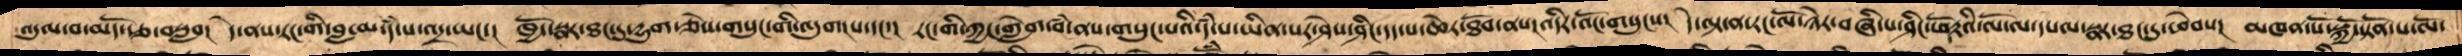འདུལ་བ་མདོ་རྩ་བསླབ།  དེ་ནས་རང་གི་བླ་མ་དཾ་པ་འདྲ་ཡང་།  ཁྱོད་སྣར་ཐང་དུ་དྱུག་ཅེས་གསུང་གི་འདུགངཔ་དང་།  རང་གི་ཀྱང་གླེག་བཾ་ནས་གསུང་པའི་དཾ་པ་ཡིན་པར་ཤེས་ཤིང་དད་པ་ཆེར་ཐོབ་ནས།འདིར་འོང་གསུངས།  དེ་ལྟ་ན་རང་ལོ་ཉེར་བཞི་པ་ཤིང་ཕོ་རྟའི་ལོ་ལ་དཔལ་སྣར་ཐང་དུ་ཕེབས།  མཁན་པོ་སྐྱོ་སྟོན་པ་ལོ་
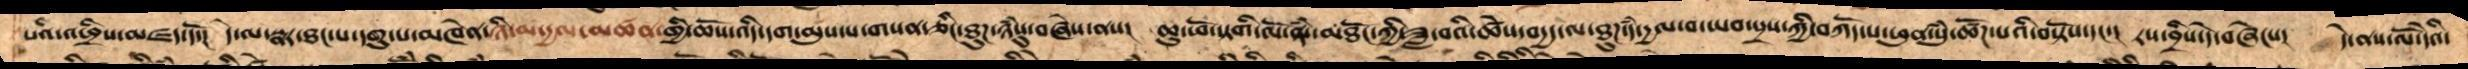པའི་འཕྲིས་མཛད་དོ་།  དེ་ལ་སྣར་ཐང་པ་དགུ་པ་མཁེན་ཉི་མ་དྱལ་མཚན་གྱི་ཆོས་འདི་དག་མུས་པ་གསན་ཅིང་ཐུཌ་ཉཾསུ་བཞེས་ནས།  ཆུ་ཕོ་སྟགི་ལོ་ནཾ་མཐོང་ཀྱི་ཟླ་བའི་ཚེས་བདྱད་ལ་ཐུཌ་དཾ་དྱལ་བ་ཡབ་སྲས་ཀྱི་བཀོད་པ་ཕུན་སུཾ་ཚོཌ་པའི་བསྟོས་དང་།  རས་བྲིས་དེ་བཞེངས།  དེ་ནས་ལོ་དེའི་
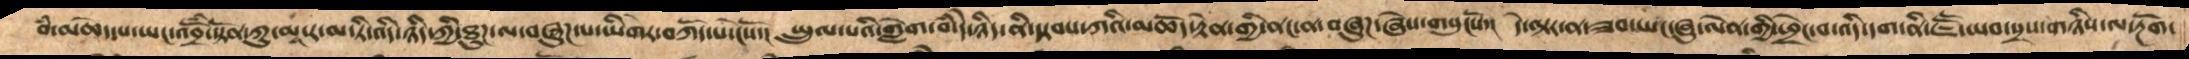བཾ་མཆེད་པ་ཡང་འབྲོཾ་སྟོན་ཀུ་མཱ་ར་མ་ཏི་འདི་ཉིད་ཀྱི་ཐུཌ་ལ་བཞུཌ་པ་ཡིགེར་བཀོད་པ་ངེསོ་།  སྤྲུལ་པའི་གླེག་བཾ་དེ་ཉིད་ནི་སྟབས་ཀའི་མཆོད་རྟེན་གྱི་ནང་ན་བཞུཌ་ཞེས་གསུངསོ་།  དེ་ལྟར་ན་ཟབ་ཡང་ཞུ་ལེན་གྱི་ཕྲེང་བ་འདི་དག་ནི་ཇཽ་ཡབ་སྲས་གཉིས་ལ་རྔོག་
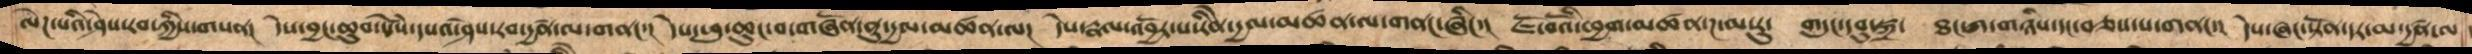ལེཌ་པའི་ཤེས་རབ་ཀྱིས་གསན།  དེས་བྱང་ཆུབ་སེཾས་དཔའ་ཤེས་རབ་དྱཚན་ལ་གནང་།  དེས་ཕུ་ཆུང་བ་གཞོན་ནུ་དྱལ་མཚན་ལ།  དེས་རྣལ་འབྱོར་པ་རིནེ་དྱལ་མཚན་ལ་གནང་ཞིང་།  ཇོ་བོའི་ཕྱག་མཚན་ཌ་མ་རུ་  གདུང་དབུ་སྐྲ་  ཐང་ཀ་གཉིས་དང་བཅས་པ་གནང་།   དེས་ཞང་སྟོན་དར་མ་དྱཚན་ལ
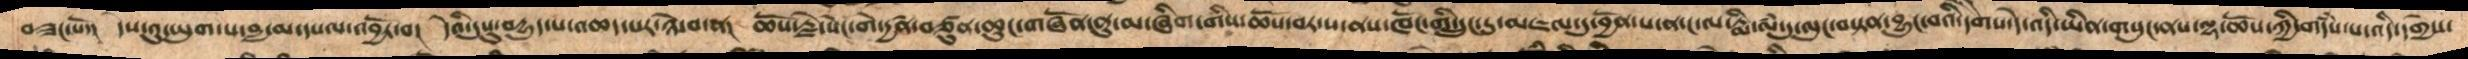བཟང་པོ།  དེས་འུ་ཡུག་པ་བླ་མ་དཔལ་འབྱོར་བ།  དེའི་དུསུ་བདྱུད་པ་འཆད་པར་ཉེ་བ་ན།  ཆོས་རྗེ་སེང་གེ་དྱཚན་བཙུན་ཆུང་གཞོན་ནུ་མ་ཞིག་གིས་ཆོས་བར་པ་ནས་ཁོང་གི་དྲུང་དུ་མཇལ་དུ་བྱོན་པ་ན་ང་ལ་རྨི་ལཾ་དུ་ལུང་བསྟན་བྱུང་བའི་དགེས་དེ་འདི་ཡིན་གསུང་ནས་ལྷ་ཆོས་ཀྱི་གདཾས་པ་འདི་དགྱེས་
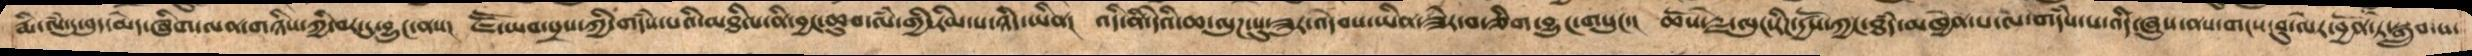རྨི་ལམ་དུ་བུད་མེད་ཞིག་ལན་གཉིས་ཀྱི་བར་དུ་བྱུང་ནས།  ཇཽ་ཡབ་སྲས་ཀྱི་གདཾས་པའི་མཐིལ་ནི་བྱང་ཆུབ་ལཾ་གྱི་རིམ་པ་ཉིད་ཡིན།  འདི་ནི་དེའི་ཆ་ལུཌ་སུ་ཟུར་འདེབས་ཡིན་ཟེར་བ་ཅིག་བྱུང་གསུང་།  ཆོས་རྗེ་ལུང་རིཌ་དྱཚོས་ཀྱང་ཐཾད་མཁྱེན་པ་ལ་གདཾས་པ་འདི་ཞུས་ནས་གངས་བུ་ལེར་བྱོན་ཏེ་སྒྲུབ་པ་
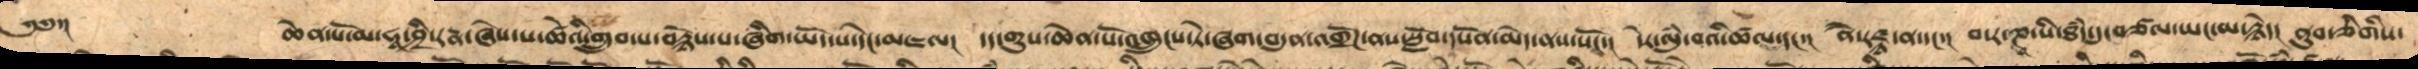༄༅་།       ཆེན་པོ་མ་ཧཱ་ཤྲི་རཏྣ་ཞེས་པ་ཚེའི་གྲུབ་པ་བརྙེས་པ་ཞིག་ཡོད་པ་དེང་མཇལ།  དད་གུས་ཆེན་པོ་འཁྲུངས་ཏེ་ཞག་བདུན་འགྲོཌ་ནས་སློབ་དཔོན་མེད་ནས་སོང་།  དེར་ལུཾ་བའི་ཚལ་དང་།  ནཻ་རཛྙ་ན་དང་།  བ་ར་ཎཱ་སི་ཐཾད་དུ་བཙལ་ཡང་མ་རྙེད།  ནུབ་ཅིགིས་
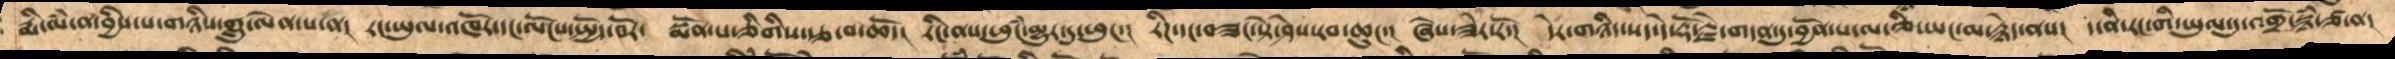རྨི་ལཾ་ན་བྱིས་པ་གཉིས་གླུ་ལེན་པ་ན།  རང་ཡུལ་འཁོར་དང་ལོངས་སྤྱོད་བོར་  སྨོན་པ་ཅིགིས་རྩ་བ་ཆོད། རིང་ནས་ཕུངཾ་མྱུར་དུ་ཕུང་། རིཌ་དང་བཟང་སྟེ་ཤེས་རབ་ཆུང་།  ཞེས་ཟེར་རོ་།  དེར་གཉིད་སད་དེ་རྡོ་རྗེ་གདན་དུ་བྱོན་པ་ལ་ཅི་ཡང་མ་རྙེད་ནས།  ད་ནི་རང་གི་ཡུལ་དུ་འགྲོ་སྙཾ་ཙ་ན།
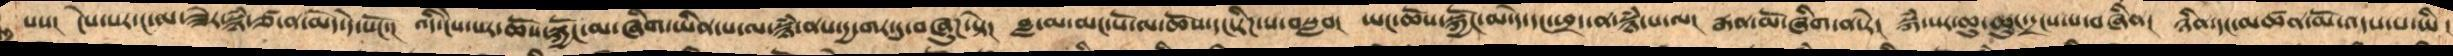པས།  ངེས་པར་ང་ལ་ཟེར་སྙཾ་ཙ་ན་མེད་དེ་སོང་།  འདི་ངེས་པར་ཆོས་སྐྱོང་མ་ཞིག་ཡིན་པ་ལ་སྙཾ་ནས་དྱ་གར་དུ་བཞུཌ་སྟེ།  བླ་མ་མང་པོ་ལ་ཆོས་དང་རིཌ་པ་བསླབ།  ཡང་ཆོས་སྐྱོང་མ་དེ་དང་ཕྲད་ན་སྙཾ་པ་ལ།  རྒན་མོ་ཞིག་ན་རེ།  སྐཾ་སར་ཆུ་ཆུང་དྲངས་པ་བཞིན།  ཉིན་དང་མཚན་མོ་འདས་པ་ཡི་
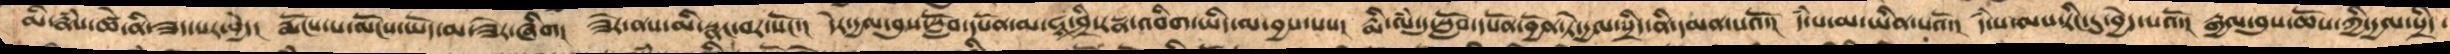མི་རྣཾས་ཚེ་ནི་ཟད་པར་བྱེད།  རྨོངས་པ་ལོངས་ཡོད་མ་ཟེར་ཞིག།  ཟེར་ནས་མི་སྣང་བར་སོང་།  དེར་དྱལ་བུས་སློབ་དཔོན་མ་ཧཱ་ཤྲི་རཏྣ་འབིག་ཡིད་མ་བྱས་པས།  རྨི་ལཾ་དུ་སློབ་དཔོན་བྱོན་ཏེ་དྱལ་སྲིད་ནི་དམན་པའོ་།   དཾ་པ་མ་ཡིན་པའོ་།  དཾ་པ་ལས་རིང་དུ་བྱེད་པའོ་།  རྒྱལ་བུས་ཆོས་ཀྱི་དྱལ་སྲིད་
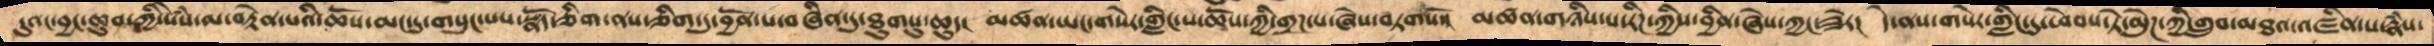དུའང་བྱང་ཆུབ་ཀྱི་སེསཾ་ལ་བརྟེན་པའི་ཆོས་མང་དུ་གསུང་པས་སྣོད་ཅིག་ནས་ཅིག་ཏུ་བྱོན་པ་བཞིན་དུ་ཐུགསུ་ཆུད།  མཚན་ཡང་གསེར་གླིང་པ་ཆོས་ཀྱི་གྲཌ་པ་ཞེས་བཏགསོ།  མཚན་གཉིས་པ་རིཌ་ཀྱིས་བྱིན་ཞེས་ཀྱང་ཟེར།  དེ་ནས་གསེར་གླིང་དུ་ཕེབས་ཏེ་མེུཌ་ཀྱི་གྲུབ་མཐའ་འཛིན་པ་རྣཾས་
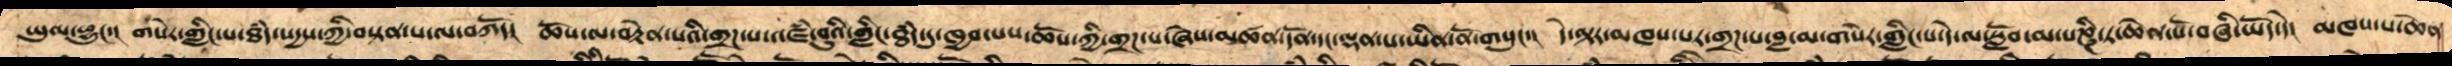ཡུལ་ཕྱུང་།  གསེར་གླིང་པ་ཐཾད་སདྱས་ཀྱི་བསྟན་པ་ལ་བཀོད།  ཆོས་ལ་བརྟེན་པའི་གྲཌ་པ་འཛཾ་བུའི་གླིང་ཐཾད་དུ་ཁྱབ་པས་ཆོས་ཀྱི་གྲཌ་པ་ཞེས་མཚན་དོན་དང་ལྡན་པ་ཡིན་ནོ་གསུང་།  དེ་ལྟར་མཁས་པར་གྲཌ་པ་བླ་མ་གསེར་གླིང་པ་དེ་ལ་སློབ་མ་པཎྚི་ཏ་ཆེན་པོ་བཞི་ཡོད་དེ།  མཁས་པ་ཆེན
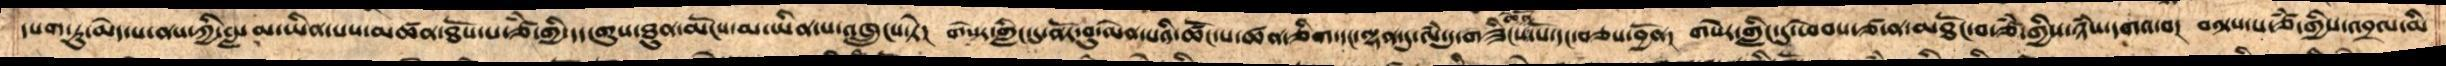དཔག་ཏུ་མེད་པ་ནས་ཀྱི་བླ་མ་ཡིན་པས་མཚན་ཐོས་པ་ཙཾ་གྱི་དད་གུས་ཐུན་མོངས་མ་ཡིན་པ་འཁྲུངས་ཏེ། གསེར་གླིང་དུ་ནོར་བུ་ལེན་པའི་ཚོང་པ་ཚན་ཅིག་དང་ལྷན་དུ་ལཾ་དུ་གཟིངས་ཆེན་པོས་དང་བཅས་བྱོན། གསེར་གླིང་དུ་ཕེབས་ཙ་ན་མཐོང་བ་ཙཾ་གྱིས་ཉཾས་དགའ་བ། བལྟས་པ་ཙཾ་གྱིས་འབྲལ་མི་
